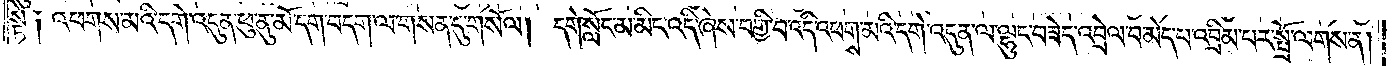སྟེ༑ འཕགས་མའི་དགེ་འདུན་ཕུ་ནུ་མོ་དག་བདག་ལ་གསན་དུ་གསོལ། དགེ་སློང་མ་མིང་འདི་ཞེས་བགྱི་བ་འདི་འཕགས་མའི་དགེ་འདུན་ལ་ལྷུང་བཟེད་འབྲེལ་བ་མེད་པ་འབྲིམ་པར་སྤྲོ་ལགས་ན།
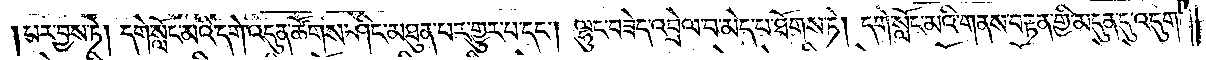པར་བྱས་ཏེ། དགེ་སློང་མའི་དགེ་འདུན་ཚོགས་ཤིང་མཐུན་པར་གྱུར་པ་དང༌། ལྷུང་བཟེད་འབྲེལ་བ་མེད་པ་ཐོགས་ཏེ། དགེ་སློང་མའི་གནས་བརྟན་གྱི་མདུན་དུ་འདུག་
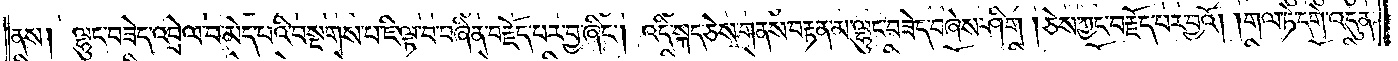ནས། ལྷུང་བཟེད་འབྲེལ་བ་མེད་པའི་བསྔགས་པ་ཇི་ལྟ་བ་བཞིན་བརྗོད་པར་བྱ་ཞིང༌། འདི་སྐད་ཅེས་གནས་བརྟན་མ་ལྷུང་བཟེད་བཞེས་ཤིག །ཅེས་ཀྱང་བརྗོད་པར་བྱའོ། །གལ་ཏེ་དགེ་འདུན་
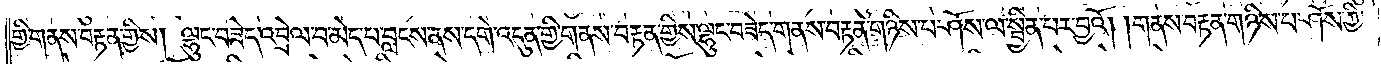གྱི་གནས་བརྟན་གྱིས། ལྷུང་བཟེད་འབྲེལ་བ་མེད་པ་བླངས་ནས་དགེ་འདུན་གྱི་གནས་བརྟན་གྱིས་ལྷུང་བཟེད་གནས་བརྟན་གཉིས་པ་ཤོས་ལ་སྦྱིན་པར་བྱའོ། །གནས་བརྟན་གཉིས་པ་ཤོས་ཀྱི་
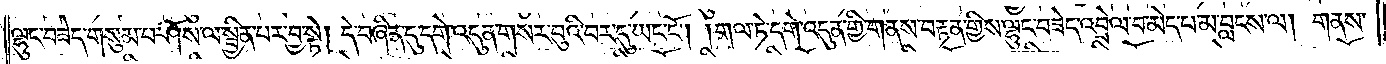ལྷུང་བཟེད་གསུམ་པ་ཤོས་ལ་སྦྱིན་པར་བྱ་སྟེ། དེ་བཞིན་དུ་དགེ་འདུན་གསར་བུའི་བར་དུ་ཡང་ངོ༌། །གལ་ཏེ་དགེ་འདུན་གྱི་གནས་བརྟན་གྱིས་ལྷུང་བཟེད་འབྲེལ་བ་མེད་པ་མ་བླངས་ལ། གནས་
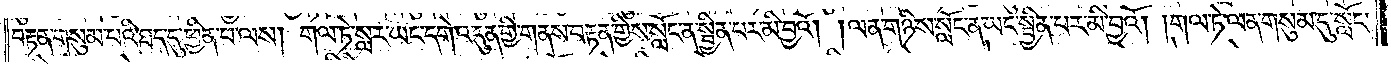བརྟན་གསུམ་པའི་ཐད་དུ་ཕྱིན་པ་ལས། གལ་ཏེ་སླར་ཡང་དགེ་འདུན་གྱི་གནས་བརྟན་གྱིས་སློང་ན་སྦྱིན་པར་མི་བྱའོ། །ལན་གཉིས་སློང་ན་ཡང་སྦྱིན་པར་མི་བྱའོ། །གལ་ཏེ་ལན་གསུམ་དུ་སློང་
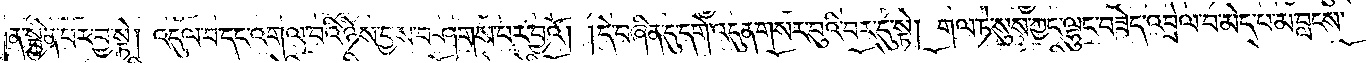ན་སྦྱིན་པར་བྱ་སྟེ། འདུལ་བ་དང་འགལ་བའི་ཉེས་བྱས་བཤགས་པར་བྱའོ། །དེ་བཞིན་དུ་དགེ་འདུན་གསར་བུའི་བར་དུ་སྟེ། གལ་ཏེ་སུས་ཀྱང་ལྷུང་བཟེད་འབྲེལ་བ་མེད་པ་མ་བླངས་
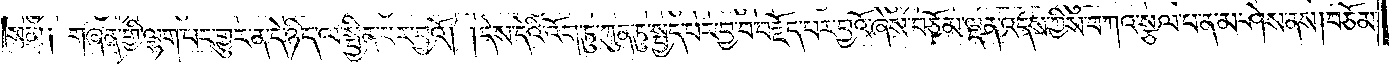སམ༑ གཞན་གྱི་ལྷག་པར་གྱུར་ན་དེ་ཉིད་ལ་སྦྱིན་པར་བྱའོ། །དེས་དེའི་འོག་ཏུ་ཀུན་ཏུ་སྤྱད་པར་བྱ་བ་བརྗོད་པར་བྱའོ་ཞེས་བཅོམ་ལྡན་འདས་ཀྱིས་བཀའ་སྩལ་པ་ན་མ་ཤེས་ནས། བཅོམ་
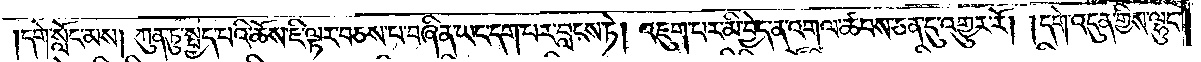དགེ་སློང་མས། ཀུན་ཏུ་སྤྱད་པའི་ཆོས་ཇི་ལྟར་བཅས་པ་བཞིན་ཡང་དག་པར་བླངས་ཏེ། འཇུག་པར་མི་བྱེད་ན་འགལ་ཚབས་ཅན་དུ་འགྱུར་རོ། །དགེ་འདུན་གྱིས་ལྷུང་
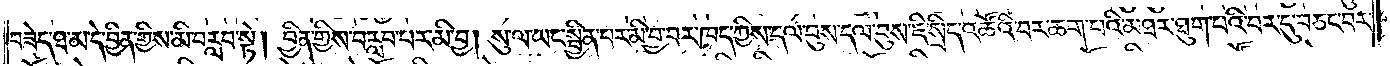བཟེད་ཐ་མ་དེ་བྱིན་གྱིས་མི་བརླབ་སྟེ། བྱིན་གྱིས་བརླབ་པར་མི་བྱ། སུ་ལ་ཡང་སྦྱིན་པར་མི་བྱ་བར་ཁད་ཀྱིས་དལ་བུས་དལ་བུས་ཇི་སྲིད་འཚོའི་བར་ཆག་པའི་མཐར་ཐུག་པའི་བར་དུ་བཅང་བར་
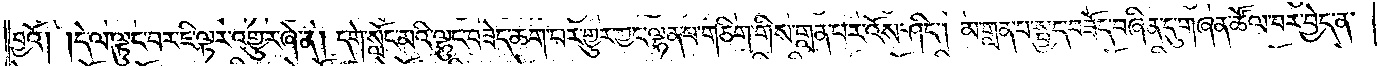བྱའོ། །དེ་ལ་ལྟུང་བར་ཇི་ལྟར་འགྱུར་ཞེ་ན། དགེ་སློང་མའི་ལྷུང་བཟེད་ཆག་པར་གྱུར་ཀྱང་ལྷན་པ་གཅིག་གིས་གླན་པར་འོས་ཤིང༌། མ་གླན་པ་སྤྱད་པ་བཟོད་བཞིན་དུ་གཞན་ཚོལ་བར་བྱེད་ན་
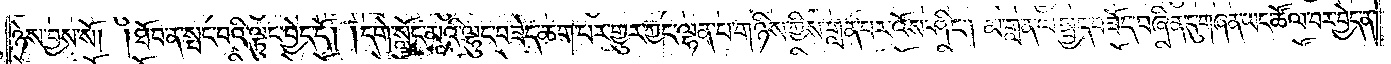ཉེས་བྱས་སོ། །ཐོབ་ན་སྤང་བའི་ལྟུང་བྱེད་དོ། །དགེ་སློང་མའི་ལྷུང་བཟེད་ཆག་པར་གྱུར་ཀྱང་ལྷན་པ་གཉིས་ཀྱིས་གླན་པར་འོས་ཤིང༌། མ་གླན་པ་སྤྱད་བཟོད་བཞིན་དུ་གཞན་ཡང་ཚོལ་བར་བྱེད་ན་
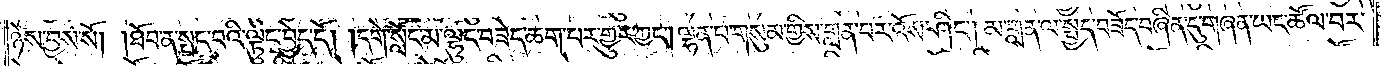ཉེས་བྱས་སོ། །ཐོབ་ན་སྤང་བའི་ལྟུང་བྱེད་དོ། །དགེ་སློང་མ་ལྷུང་བཟེད་ཆག་པར་གྱུར་ཀྱང༌། ལྷན་པ་གསུམ་གླན་པར་འོས་ཤིང༌། མ་གླན་ལ་སྤྱད་བཟོད་བཞིན་དུ་གཞན་ཡང་ཚོལ་བར་
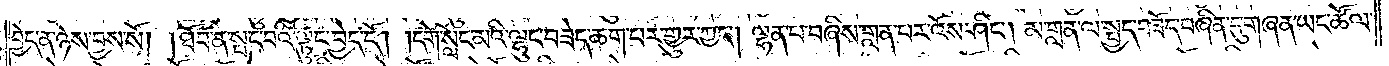བྱེད་ན་ཉེས་བྱས་སོ། །ཐོབ་ན་སྤང་བའི་ལྟུང་བྱེད་དོ། །དགེ་སློང་མའི་ལྷུང་བཟེད་ཆག་པར་གྱུར་ཀྱང༌། ལྷན་པ་བཞིས་གླན་པར་འོས་ཤིང༌། མ་གླན་ལ་སྤྱད་བཟོད་བཞིན་དུ་གཞན་ཡང་ཚོལ་
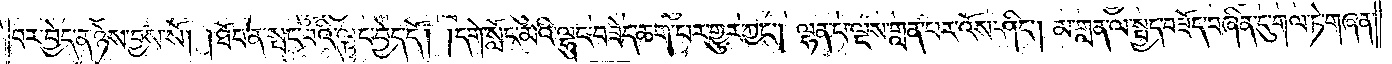བར་བྱེད་ན་ཉེས་བྱས་སོ། །ཐོབ་ན་སྤང་བའི་ལྟུང་བྱེད་དོ། །དགེ་སློང་མའི་ལྷུང་བཟེད་ཆག་པར་གྱུར་ཀྱང༌། ལྷན་པ་ལྔས་གླན་པར་འོས་ཤིང༌། མ་གླན་ལ་སྤྱད་བཟོད་བཞིན་དུ་གལ་ཏེ་གཞན་
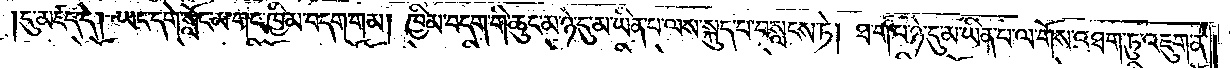དུ་མཛད་དེ། ཡང་དགེ་སློང་མ་གང་ཁྱིམ་བདག་གམ། ཁྱིམ་བདག་གི་ཆུང་མ་ཉེ་དུ་མ་ཡིན་པ་ལས་སྐུད་པ་བསླངས་ཏེ། ཐ་ག་པ་ཉེ་དུ་མ་ཡིན་པ་ལ་གོས་འཐག་ཏུ་འཇུག་ན་
